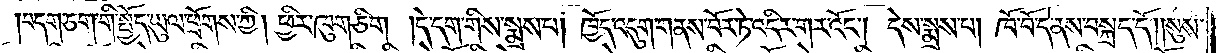བདག་ཅག་གི་སྤྱོད་ཡུལ་ཕྲོགས་ཀྱི། ཕྱིར་ཁུག་ཅིག །དེ་དག་གིས་སྨྲས་པ། ཁྱོད་འདུག་གནས་པོར་ཏེ་འདིར་གར་འོང༌། དེས་སྨྲས་པ། ཁོ་བོ་དེ་ནས་བསྐྲད་དོ། །སུས་
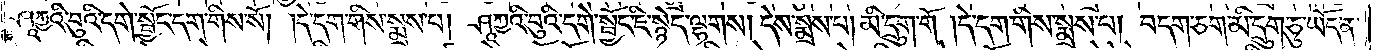ཤཱཀྱའི་བུའི་དགེ་སྦྱོང་དག་གིས་སོ། །དེ་དག་གིས་སྨྲས་པ། ཤཱཀྱའི་བུའི་དགེ་སྦྱོང་ཇི་སྙེད་ལྷགས། དེས་སྨྲས་པ། མི་དྲུག་གོ །དེ་དག་གིས་སྨྲས་པ། བདག་ཅག་མི་དྲུག་ཅུ་ཡོད་ན་
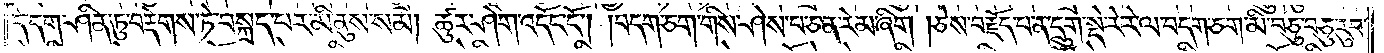དེ་དག་ཤིན་ཏུ་བརྡེགས་ཏེ་བསྐྲད་པར་མི་ནུས་སམ། ཚུར་ཤེག་འདོང་ངོ༌། །བདག་ཅག་གིས་ཤེས་པ་ཅན་རེམ་ཞིག །ཅེས་བརྗོད་པ་ན་དྲུག་སྡེ་རེ་རེ་ལ་བདག་ཅག་མི་བཅུ་བཅུ་རུབ་
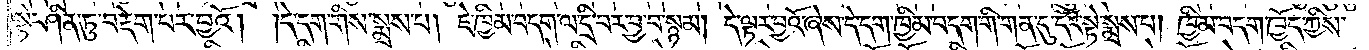སྟེ་ཤིན་ཏུ་བརྡེག་པར་བྱའོ། །དེ་དག་གིས་སྨྲས་པ། ཇེ་ཁྱིམ་བདག་ལ་དྲི་བར་བྱ་བ་སྙམ། དེ་ལྟར་བྱའོ་ཞེས་དེ་དག་ཁྱིམ་བདག་གི་གན་དུ་དོང་སྟེ་སྨྲས་པ། ཁྱིམ་བདག་ཁྱོད་ཀྱིས་
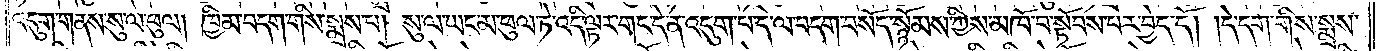འདུག་གནས་སུ་ལ་ཕུལ། ཁྱིམ་བདག་གིས་སྨྲས་པ། སུ་ལ་ཡང་མ་ཕུལ་ཏེ་འདི་ལྟར་གང་དེ་ན་འདུག་པ་ད་ལ་བདག་བསོད་སྙོམས་ཀྱིས་མཁོ་བ་སྟོབས་པར་བྱེད་དོ། །དེ་དག་གིས་སྨྲས་
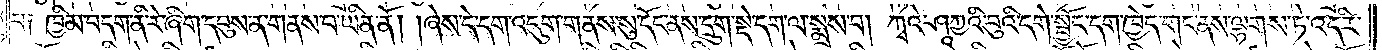པ༑ ཁྱིམ་བདག་ནི་རེ་ཞིག་དབུས་ན་གནས་པ་ཡིན་ནོ། །ཞེས་དེ་དག་འདུག་གནས་སུ་དོང་ནས་དྲུག་སྡེ་དག་ལ་སྨྲས་པ། ཀྭའེ་ཤཱཀྱའི་བུའི་དགེ་སྦྱོང་དག་ཁྱེད་གང་ནས་ལྷགས་ཏེ་འདིར་
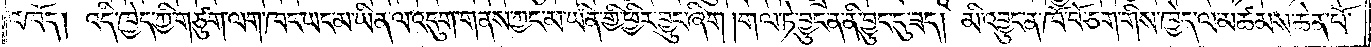འཁོད། འདི་ཁྱེད་ཀྱི་གཙུག་ལག་ཁང་ཡང་མ་ཡིན་ལ་འདུག་གནས་ཀྱང་མ་ཡིན་གྱི་ཕྱིར་བྱུང་ཞིག །གལ་ཏེ་བྱུང་ན་ནི་བྱུང་དུ་ཟད། མི་འབྱུང་ན་ཁོ་བོ་ཅག་གིས་ཁྱེད་ལ་མཚམས་ཆེན་པོ་
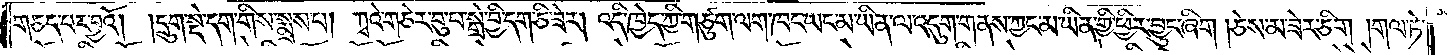གཅད་པར་བྱའོ། །དྲུག་སྡེ་དག་གིས་སྨྲས་པ། ཀྭའེ་གཅེར་བུ་པ་སྒྲེ་བྱི་དག་ཅི་ཟེར། འདི་ཁྱེད་ཀྱི་གཙུག་ལག་ཁང་ཡང་མ་ཡིན་ལ་འདུག་གནས་ཀྱང་མ་ཡིན་གྱི་ཕྱིར་བྱུང་ཞིག །ཅེས་མ་ཟར་ཅིག །གལ་ཏེ་
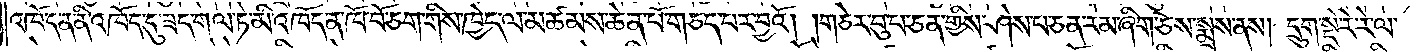འཁོད་ན་ནི་འཁོད་དུ་ཟད་གལ་ཏེ་མི་འཁོད་ན་ཁོ་བོ་ཅག་གིས་ཁྱེད་ལ་མཚམས་ཆེན་པོ་གཅད་པར་བྱའོ། །གཅེར་བུ་པ་ཅན་གྱིས་ཤེས་པ་ཅན་རེམ་ཞིག་ཅེས་སྨྲས་ནས། དྲུག་སྡེ་རེ་རེ་ལ་
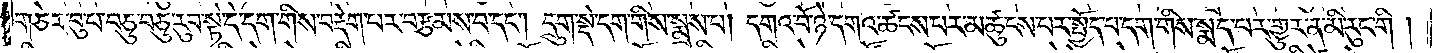གཅེར་བུ་པ་བཅུ་བཅུ་རུབ་སྟེ་དེ་དག་གིས་བརྡེག་པར་བརྩམས་པ་དང༌། དྲུག་སྡེ་དག་གིས་སྨྲས་པ། དགའ་བོ་ཉེ་དགའ་ཚངས་པར་མཚུངས་པར་སྤྱོད་པ་དག་གིས་སྨད་པར་གྱུར་ན་མི་རུང་གི །
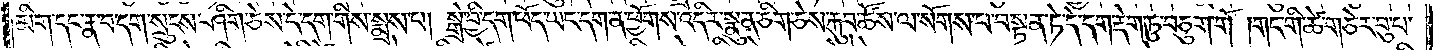མིག་དང་རྣ་བ་དག་སྲུངས་ཤིག་ཅེས་དེ་དག་གིས་སྨྲས་པ། སྒྲེ་བྱི་དག་ཕོད་ཡང་དག་ན་ཕྱོགས་འདིར་སྣུན་ཅིག་ཅེས་རྐུབ་ཚོས་ལ་སོགས་པ་བསྟན་ཏེ་དེ་དག་རྡེག་ཏུ་བཅུག་གོ །གང་གི་ཚེ་གཅེར་བུ་པ་
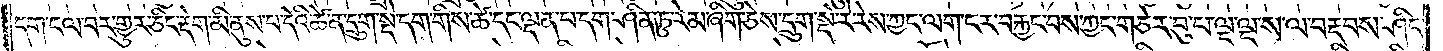དག་ངལ་བར་གྱུར་ཅིང་རྡེག་མི་ནུས་པ་དེའི་ཚེ་ན་དྲུག་སྡེ་དག་གིས་ཚེ་དང་ལྡན་པ་དག་ཤིན་ཏུ་རེམ་ཞིག་ཅེས་དྲུག་སྡེ་རེ་རེས་ཀྱང་ལག་ངར་བརྐྱང་པས་ཀྱང་གཅེར་བུ་པ་ལྔ་ལྔ་ས་ལ་བརྡབས་ཤིང་
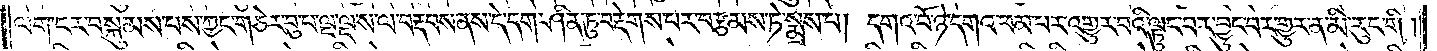ལག་ངར་བསྐུམས་པས་ཀྱང་གཅེར་བུ་པ་ལྔ་ལྔ་ས་ལ་བརྡབས་ནས་དེ་དག་ཤིན་ཏུ་བརྡེགས་པར་བརྩམས་ཏེ་སྨྲས་པ། དགའ་བོ་ཉེ་དགའ་ཕམ་པར་འགྱུར་བའི་ལྟུང་བར་བྱུང་བར་གྱུར་ན་མི་རུང་གི།
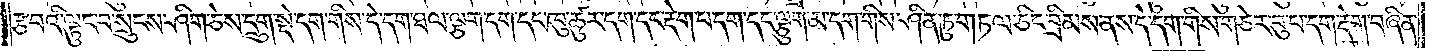རྩ་བའི་ལྟུང་བ་སྲུངས་ཤིག་ཅེས་དྲུག་སྡེ་དག་གིས་དེ་དག་ཐལ་ལྕག་དག་དང་ཁུ་ཚུར་དག་དང་རྡེག་པ་དག་དང་ལྕུག་མ་དག་གིས་ཤིན་ཏུ་གཏལ་ཅིང་བྲིམས་ནས་དེ་དག་གིས་གཅེར་བུ་བ་དག་རྡེག་བཞིན་
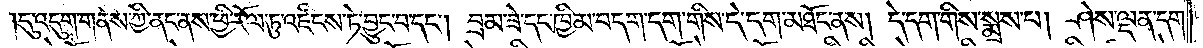དུ་འདུག་གནས་ཀྱི་ནང་ནས་ཕྱི་རོལ་ཏུ་འཛིངས་ཏེ་བྱུང་བ་དང༌། བྲམ་ཟེ་དང་ཁྱིམ་བདག་དག་གིས་དེ་དག་མཐོང་ནས། དེ་དག་གིས་སྨྲས་པ། ཤེས་ལྡན་དག་
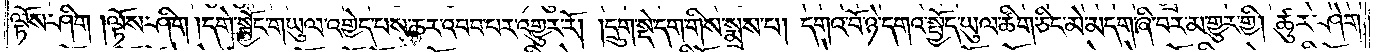ལྟོས་ཤིག །ལྟོས་ཤིག །དགེ་སྦྱོང་གཡུལ་འགྱེད་པས་ཆར་འབབ་པར་འགྱུར་རོ། །དྲུག་སྡེ་དག་གིས་སྨྲས་པ། དགའ་བོ་ཉེ་དགའ་སྤྱོད་ཡུལ་ཚིག་ཅིང་མེ་མདག་ཞི་བར་མ་གྱུར་གྱི། ཚུར་ཤེག་
